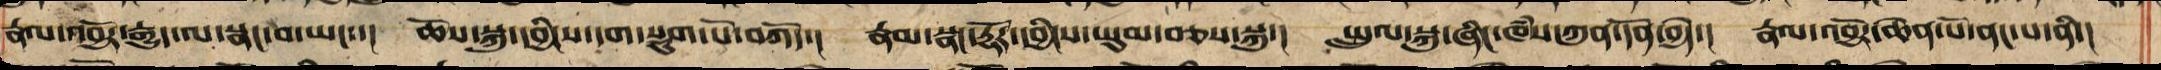རྣལ་འབྱོར་རྒྱུད་ལ་སྣང་བ་ཡང་་། ཆོས་སྐུ་དབྱིངས་དག་སྟུག་པོ་བཀོད་། རྣམ་སྣང་རྡོར་དབྱིངས་ཡུམ་བཅས་སྐུ་། སྤྲུལ་སྐུས་ཞིང་ཁཾས་ཀུན་དོན་བྱེད་། རྣལ་འབྱོར་ཆེན་པོ་ནང་པ་ནི་།
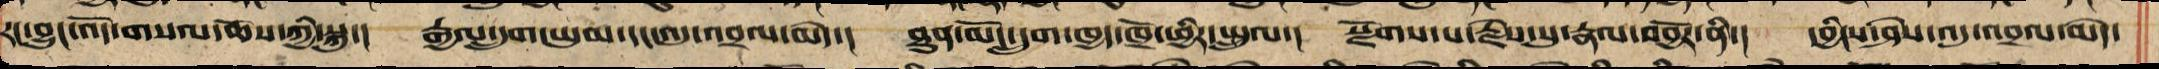རང་བྱུང་འོད་གསལ་ཆོས་ཀྱི་སྐུ་། རྒྱལ་དྲུག་ཡུམ་དང་འདུ་འབྲལ་མེད་། ཐུན་མོང་དྲུག་ཁྱད་ཁྲོ་ཕྱིར་སྤྲུལ་། སྫོགས་པ་རྗེས་སུ་རྣལ་འབྱོར་ནི་། དབྱིངས་ཤེས་འདུ་འབྲལ་མེད་
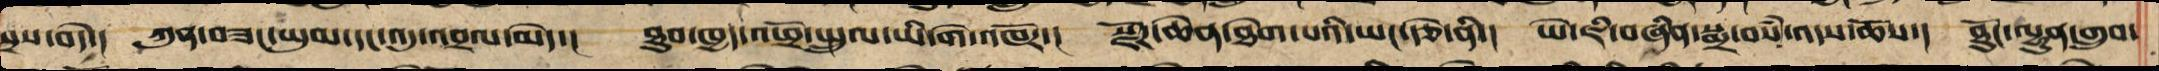སྲས་བདེ་། ཀུན་བཟང་ཡུམ་དང་འདུ་འབྲལ་མེད་། ཐུབ་ཁྱད་འཕྲོ་སྤྲུལ་ཡི་གེ་འཁོར་། སྫོཌ་ཆེན་ཐེག་པའི་ཡང་རྩེ་ནི་། ཡེ་ཇི་བཞིན་སྨྲ་བསཾ་འདས་ཆོས་། ཐོུང་ལྷུན་གྲུབ་
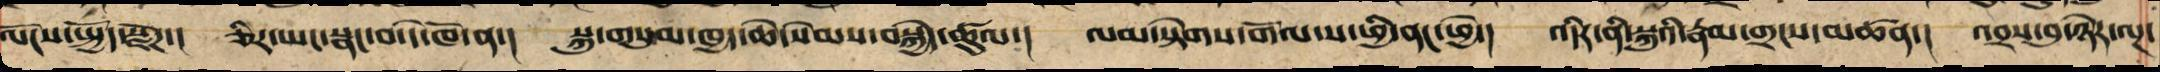ལོངས་སྤྱོད་སྫོཌ་། ཅིར་ཡང་སྣང་བ་དེ་ཁོ་ན་། སྐུ་གསུམ་ཁྱད་ཆེ་སེམས་བསྐྱེད་ཚུལ་། ལམ་སྟེགས་གོལ་ས་ཕྱི་ནང་ཕྱེ་། འདིར་ནི་སྐུའི་རྣམ་གྲངས་མཚན་། འབྲས་བུ་ཉེར་ལྔ་
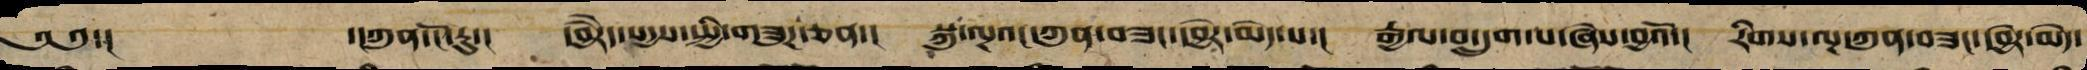༄༅་། ་།ཀུན་ངོ་རུ་། དབྱེརེད་སདྱས་སྤྱི་གཟུཌ་ཅན་། སྐུ་ལྔའང་ཀུན་བཟང་དབྱེར་མེད་པས་། རྒྱལ་བ་དྲུག་པ་ཞེས་བྱའོ་། རིགས་ལྔ་ཀུན་བཟང་དབྱེར་མེད་
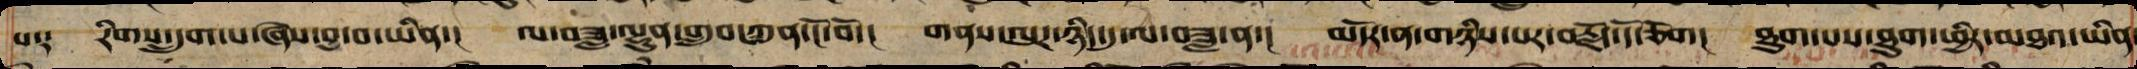པས༑ རིགས་དྲུག་པ་ཞེས་བྱ་བ་ཡིན་། ལ་བཟླ་ལྷུན་གྲུབ་ཀུན་ངོ་བོ་། གནས་ལུཌ་ཉིད་དུ་ལ་བཟླ་ན་། མདོར་ན་གཉིས་པར་བརྗོད་དོ་ཅོག། ཐུག་པས་ཐུག་ཕྱིར་མཐའ་ཡིན
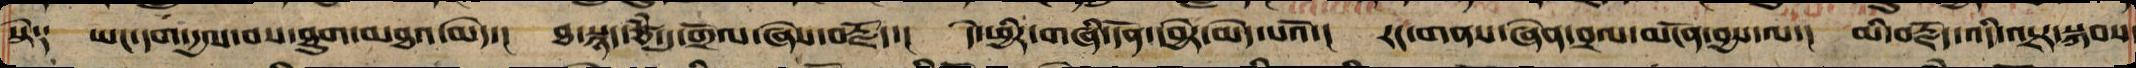སྟེ༑ ཡང་དག་དྱལ་བས་ཐུག་མཐའ་མེད་། ཐ་སྙད་ཙཾ་དུ་གྲོལ་ཞེས་བརྗོད་། དེ་ཕྱིར་གཞི་དོན་སྐྱེ་མེད་པའོ་། རང་གནས་ཞེན་བྲལ་མངོན་བྱས་ལ་། མི་བརྗོད་འདི་འདྲར་སྐབས་
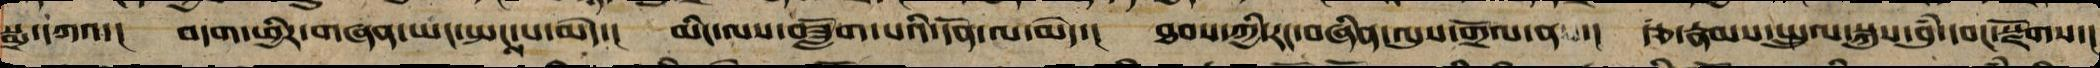སྨྲ་དཀའ་། བདག་ཕྱིར་གཞན་ཡང་སྤངས་པ་མེད་། མིང་ལས་བཟློག་པའི་དོན་ལ་མེད་། ཐབས་ཀྱི་རང་བཞིན་ལུས་གྲོལ་ན་། རྩ་རྣམས་སྤྲུལ་སྐུས་བུཾ་དབང་སྫོགས་།
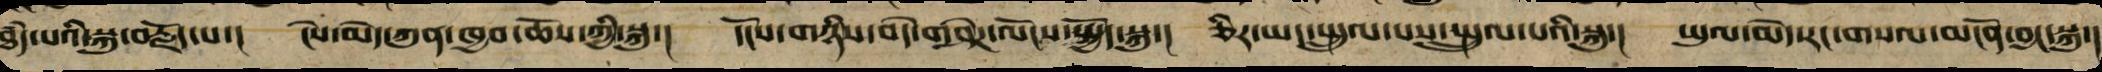ཐཾད་པ་ཡི་སྐུ་བརྗོད་པ་། ངེས་མེད་ཀུན་ཁྱབ་ཆོས་ཀྱི་སྐུ་། དངོས་གཉིས་བདེ་གཤེཌ་ལོངས་སྤྱོད་སྐུ་། ཅིར་ཡང་སྤྲུལ་པས་སྤྲུལ་པའི་སྐུ་། ཡུལ་མེད་རང་གསལ་མངོན་བྱང་སྐུ་།
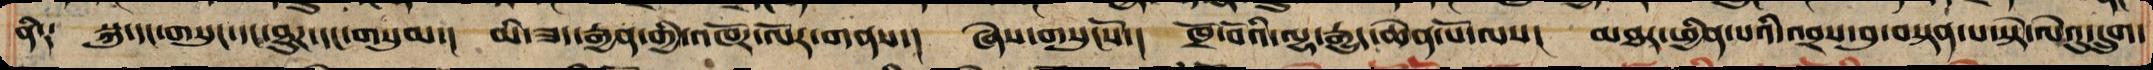ནི༑ སྐུ་དང་གསུང་དང་ཐུཌ་དང་གསུམ་།  མི་ཟད་རྒྱན་གྱི་འཁོར་ལོར་གནས་།  ཞེས་གསུངསོ་།  ཁྲོ་བོའི་ལྷ་རྒྱུད་ཆེན་པོ་ལས་། མཐར་ཕྱིན་པའི་འབྲས་བུ་བསྟན་པ་སྟེ་ལེའུ་་དྲུག་
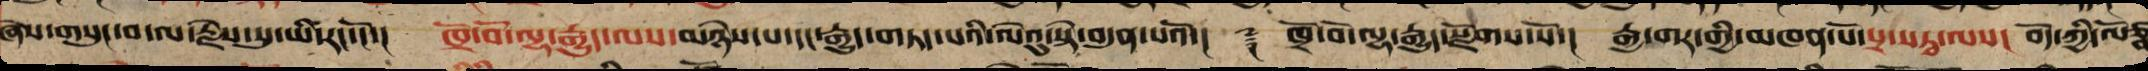ཞེས་གསུངས་པ་ལ་རྗེས་སུ་ཡི་རང་ངོ་།  ཁྲོ་བོ་ལྷ་རྒྱུད་ལས་མཉེས་པ་དང་རྒྱུད་གཏད་པའི་ལེའུ་སྟེ་བདུན་པའོ་།   ༈  ཁྲོ་བོ་ལྷ་རྒྱུད་སྫོགས་སོ་།  རྒྱ་གར་གྱི་མཁན་པོ་པྲ་སཏྭ་ལས།  བོད་ཀྱི་ལོཙྪ
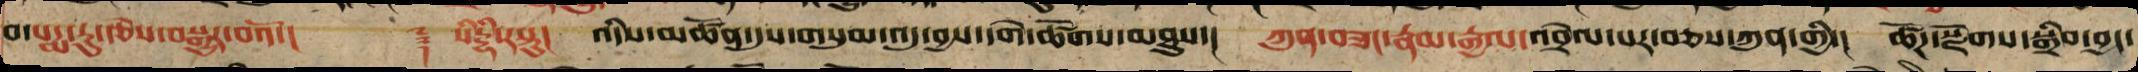བ་པདྨ་རུ་རྩེས་བསྒྱུར་བའོ།།     ༈  སིདྡྷི་རསྟུ། འདིས་མཚོན་དུས་གསུམ་འདུ་བྱས་དགེ་ཚོགས་མཐུས་།  ཀུན་བཟང་རྣམ་རྒྱལ་འབྲེལ་པར་བཅས་ཀུན་གྱི་།  ཚོཌ་སྫོགས་སྒྲིབ་བྱང་
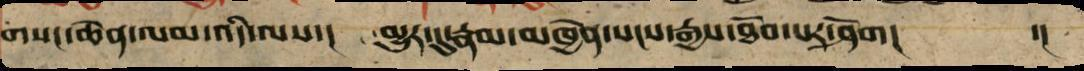གསང་ཆེན་ལམ་འདི་ལས་།  མྱུར་དུ་རྣམ་མཁྱེན་སངས་རྒྱས་ཐོབ་པར་ཤོག།    ་།
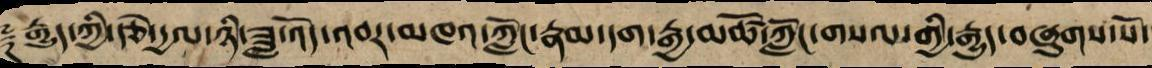༈ རྒྱུད་ཀྱི་རྩེ་རྒྱལ་ཉི་ཟླ་འོད་འབར་མཁའ་ཀློང་རྣམ་དག་རྒྱ་མཚོ་ཀློང་གསལ་གྱི་རྒྱུད་བཞུགས་སོ་
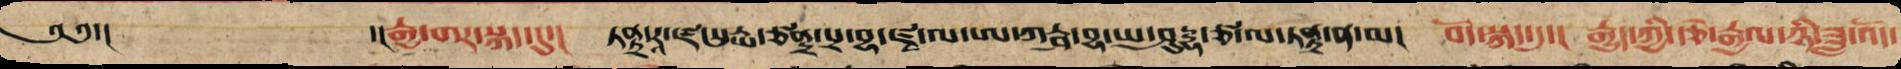༄༅་། ་།རྒྱ་གར་སྐད་དུ་། ཏནྟྲ་རཱ་ཛ་སུརྻ་ཙནྟྲ་པྲ་བྷ་ཛྭ་ལ་ཨ་ཀརྴ་བྷ་ཡ་ཤུདྡྷ་ཙ་ལ་ཏནྟྲ་ན་མ། བོད་སྐད་དུ། རྒྱུད་ཀྱི་རྩེ་རྒྱལ་ཉི་ཟླ་འོད་
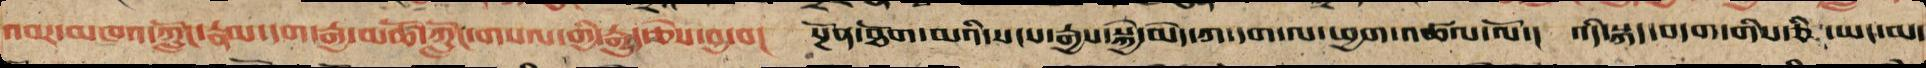འབར་མཁའ་ཀློང་རྣམ་དག་རྒྱ་མཚོ་ཀློང་གསལ་གྱི་རྒྱུད་ཅེས་བྱ་བ་། སྔོན་ཐོག་མའི་སངས་རྒྱས་སྐྱེ་མེད་ཀ་དག་ལ་ཕྱག་འཚལ་ལོ་། འདི་སྐད་བདག་གིས་ཅི་ཡང་མ་
